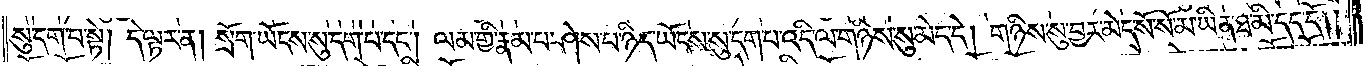སུ་དག་པ་སྟེ། དེ་ལྟར་ན། སྲོག་ཡོངས་སུ་དག་པ་དང༌། ལམ་གྱི་རྣམ་པར་ཤེས་པ་ཉིད་ཡོངས་སུ་དག་པ་འདི་ལ་གཉིས་སུ་མེད་དེ། གཉིས་སུ་བྱར་མེད་སོ་སོ་མ་ཡིན་ཐ་མི་དད་དོ། །
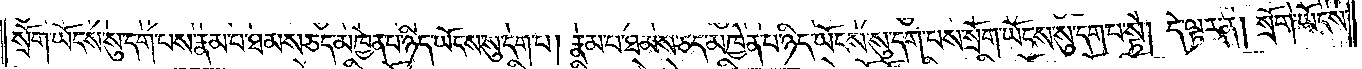སྲོག་ཡོངས་སུ་དག་པས་རྣམ་པར་ཐམས་ཅད་མཁྱེན་པ་ཉིད་ཡོངས་སུ་དག་པ། རྣམ་པར་ཐམས་ཅད་མཁྱེན་པ་ཉིད་ཡོངས་སུ་དག་པས་སྲོག་ཡོངས་སུ་དག་པ་སྟེ། དེ་ལྟར་ན། སྲོག་ཡོངས་
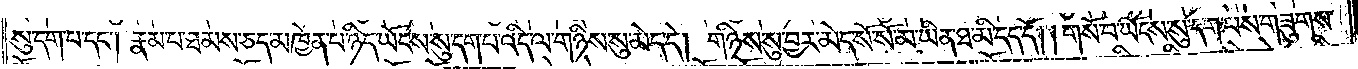སུ་དག་པ་དང༌། རྣམ་པ་ཐམས་ཅད་མཁྱེན་པ་ཉིད་ཡོངས་སུ་དག་པ་འདི་ལ་གཉིས་སུ་མེད་དེ། གཉིས་སུ་བྱར་མེད་སོ་སོ་མ་ཡིན་ཐ་མི་དད་དོ། །གསོ་བ་ཡོངས་སུ་དག་པས་གཟུགས་
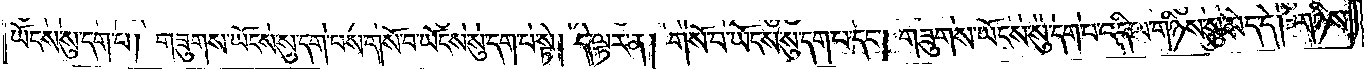ཡོངས་སུ་དག་པ། གཟུགས་ཡོངས་སུ་དག་པས་གསོ་བ་ཡོངས་སུ་དག་པ་སྟེ། དེ་ལྟར་ན། གསོ་བ་ཡོངས་སུ་དག་པ་དང༌། གཟུགས་ཡོངས་སུ་དག་པ་འདི་ལ་གཉིས་སུ་མེད་དེ། གཉིས་
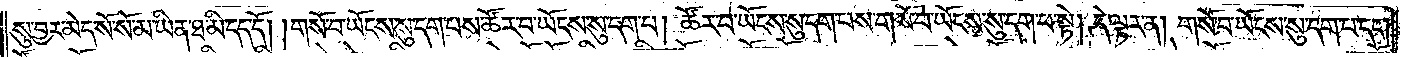སུ་བྱར་མེད་སོ་སོ་མ་ཡིན་ཐ་མི་དད་དོ། །གསོ་བ་ཡོངས་སུ་དག་པས་ཚོར་བ་ཡོངས་སུ་དག་པ། ཚོར་བ་ཡོངས་སུ་དག་པས་གསོ་བ་ཡོངས་སུ་དག་པ་སྟེ། དེ་ལྟར་ན། གསོ་བ་ཡོངས་སུ་དག་པ་དང༌།
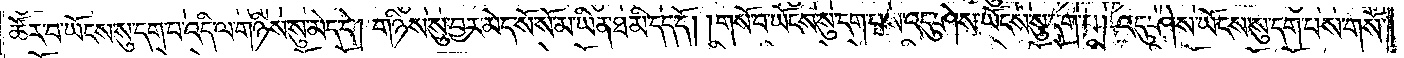ཚོར་བ་ཡོངས་སུ་དག་པ་འདི་ལ་གཉིས་སུ་མེད་དེ། གཉིས་སུ་བྱར་མེད་སོ་སོ་མ་ཡིན་ཐ་མི་དད་དོ། །གསོ་བ་ཡོངས་སུ་དག་པས་འདུ་ཤེས་ཡོངས་སུ་དག་པ། འདུ་ཤེས་ཡོངས་སུ་དག་པས་གསོ་
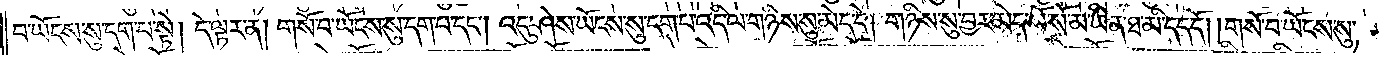བ་ཡོངས་སུ་དག་པ་སྟེ། དེ་ལྟར་ན། གསོ་བ་ཡོངས་སུ་དག་པ་དང༌། འདུ་ཤེས་ཡོངས་སུ་དག་པ་འདི་ལ་གཉིས་སུ་མེད་དེ། གཉིས་སུ་བྱར་མེད་སོ་སོ་མ་ཡིན་ཐ་མི་དད་དོ། །གསོ་བ་ཡོངས་སུ་
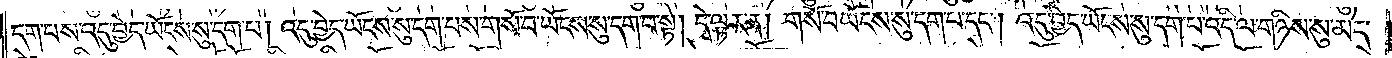དག་པས་འདུ་བྱེད་ཡོངས་སུ་དག་པ། འདུ་བྱེད་ཡོངས་སུ་དག་པས་གསོ་བ་ཡོངས་སུ་དག་པ་སྟེ། དེ་ལྟར་ན། གསོ་བ་ཡོངས་སུ་དག་པ་དང༌། འདུ་བྱེད་ཡོངས་སུ་དག་པ་འདི་ལ་གཉིས་སུ་མེད་
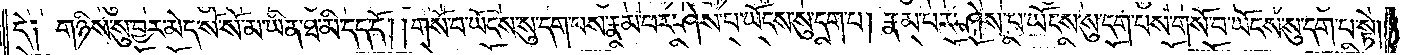དེ༑ གཉིས་སུ་བྱར་མེད་སོ་སོ་མ་ཡིན་ཐ་མི་དད་དོ། །གསོ་བ་ཡོངས་སུ་དག་པས་རྣམ་པར་ཤེས་པ་ཡོངས་སུ་དག་པ། རྣམ་པར་ཤེས་པ་ཡོངས་སུ་དག་པས་གསོ་བ་ཡོངས་སུ་དག་པ་སྟེ།
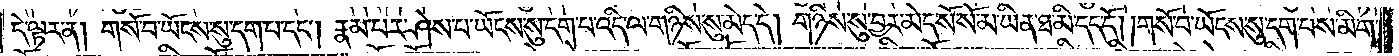དེ་ལྟར་ན། གསོ་བ་ཡོངས་སུ་དག་པ་དང༌། རྣམ་པར་ཤེས་པ་ཡོངས་སུ་དག་པ་འདི་ལ་གཉིས་སུ་མེད་དེ། གཉིས་སུ་བྱར་མེད་སོ་སོ་མ་ཡིན་ཐ་མི་དད་དོ། །གསོ་བ་ཡོངས་སུ་དག་པས་མིག་
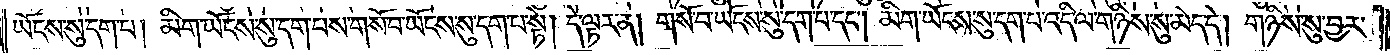ཡོངས་སུ་དག་པ། མིག་ཡོངས་སུ་དག་པས་གསོ་བ་ཡོངས་སུ་དག་པ་སྟེ། དེ་ལྟར་ན། གསོ་བ་ཡོངས་སུ་དག་པ་དང༌། མིག་ཡོངས་སུ་དག་པ་འདི་ལ་གཉིས་སུ་མེད་དེ། གཉིས་སུ་བྱར་
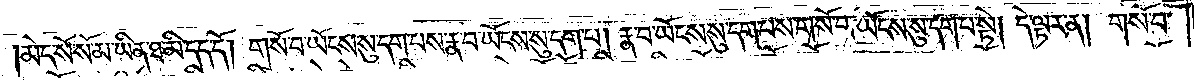མེད་སོ་སོ་མ་ཡིན་ཐ་མི་དད་དོ། །གསོ་བ་ཡོངས་སུ་དག་པས་རྣ་བ་ཡོངས་སུ་དག་པ། རྣ་བ་ཡོངས་སུ་དག་པས་གསོ་བ་ཡོངས་སུ་དག་པ་སྟེ། དེ་ལྟར་ན། གསོ་བ་
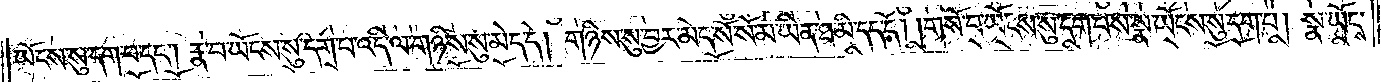ཡོངས་སུ་དག་པ་དང༌། རྣ་བ་ཡོངས་སུ་དག་པ་འདི་ལ་གཉིས་སུ་མེད་དེ། གཉིས་སུ་བྱར་མེད་སོ་སོ་མ་ཡིན་ཐ་མི་དད་དོ། །གསོ་བ་ཡོངས་སུ་དག་པས་སྣ་ཡོངས་སུ་དག་པ། སྣ་ཡོངས་
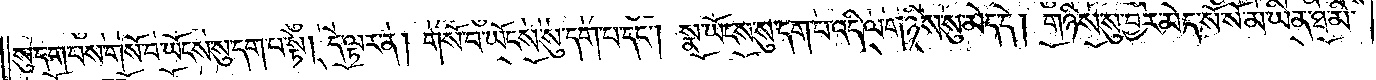སུ་དག་པས་གསོ་བ་ཡོངས་སུ་དག་པ་སྟེ། དེ་ལྟར་ན། གསོ་བ་ཡོངས་སུ་དག་པ་དང༌། སྣ་ཡོངས་སུ་དག་པ་འདི་ལ་གཉིས་སུ་མེད་དེ། གཉིས་སུ་བྱར་མེད་སོ་སོ་མ་ཡིན་ཐ་མི་
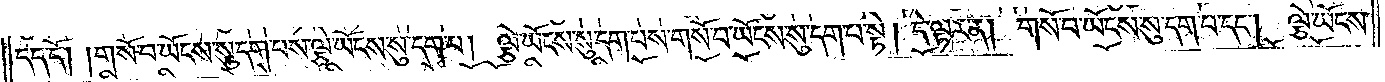དད་དོ། །གསོ་བ་ཡོངས་སུ་དག་པས་ལྕེ་ཡོངས་སུ་དག་པ། ལྕེ་ཡོངས་སུ་དག་པས་གསོ་བ་ཡོངས་སུ་དག་པ་སྟེ། དེ་ལྟར་ན། གསོ་བ་ཡོངས་སུ་དག་པ་དང༌། ལྕེ་ཡོངས་
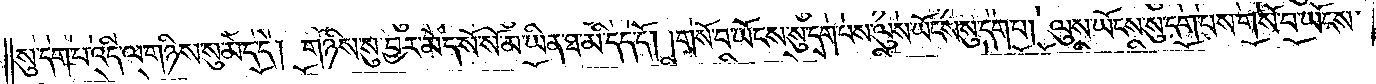སུ་དག་པ་འདི་ལ་གཉིས་སུ་མེད་དེ། གཉིས་སུ་བྱར་མེད་སོ་སོ་མ་ཡིན་ཐ་མི་དད་དོ། །གསོ་བ་ཡོངས་སུ་དག་པས་ལུས་ཡོངས་སུ་དག་པ། ལུས་ཡོངས་སུ་དག་པས་གསོ་བ་ཡོངས་
